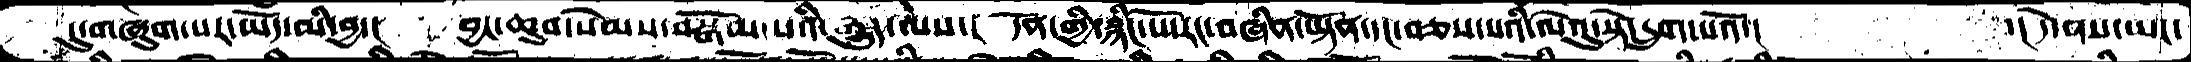དུ་གཞུག་པར་ཡོད་མི་བྱ་།  བྱང་ཆུབ་སེམས་བསྒོམ་པའི་རྒྱུད་ལས་།  དོན་གྱི་སྙིང་པོ་རང་བཞིན་ཡྟོན་དང་བཅས་པའི་ལེའུ་སྟེ་དྲུག་པའོ་།       ་། དེ་ནས་ཡང་
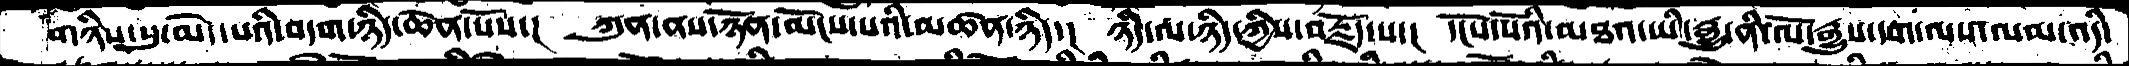གཉིས་སུ་མེད་པའི་བདག་ཉིད་ཆེན་པོས་།  ཀུན་ནས་ཉོན་མོངས་པའི་མཚན་ཉིད་།  ཉིད་ལ་ཉིད་ཀྱིས་བརྗོད་པ་།  དངོས་པོའི་མཐའ་ཡི་རྒྱུ་ནི་ལོ་རྒྱུས་དག་ལས་ལམ་འདི་
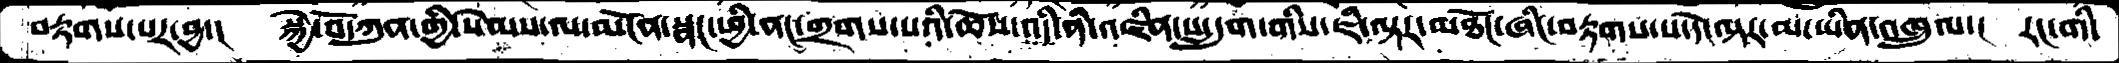བརྟགས་པར་བྱ་།  སྐྱེ་བོ་ཀུན་གྱི་སེམས་ལ་མངོན་སྣང་ཕྱི་ནང་གྲགས་པའི་ཆོས་འདི་ནི་འཛིན་པ་དྲུག་གིས་ཇི་ལྟར་མཐོང་ཞིང་བརྟགས་པ་དེ་ལྟར་མ་ཡིན་འཁྲུལ་།  རང་གི་
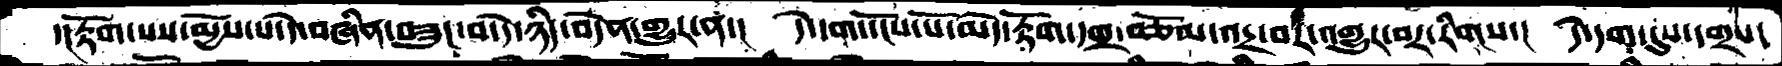་།རྟོག་པས་མྱོས་པ་དེ་བཞིན་བཟུང་བ་དེ་ཉིད་བདེན་གྱུར་ན་།  དེ་དག་དངོས་པོ་མེད་རྟོག་དགྲ་བཅོམ་འདྲ་བར་འགྱུར་བར་རིགས་།  དེ་དག་དུས་དགྲས་
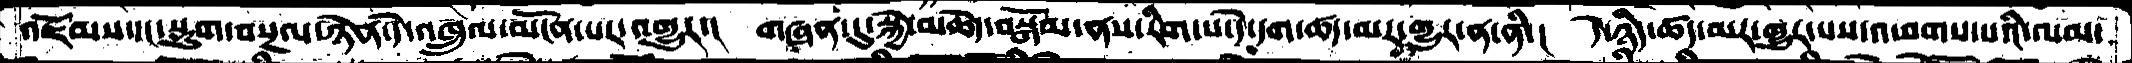འཇོམས་དང་སྡུག་བསྔལ་ཉེན་དེ་འཁྲུལ་མངོན་པར་འགྱུར་།  གཞན་དུ་སྐྱེ་མཆེད་བསྒོམ་ནས་རིག་པ་དེ་དག་ཚད་མར་གྱུར་ན་ནི་།  དེ་ཉིད་ཚད་མར་གྱུར་པས་འཕགས་པའི་ལམ་
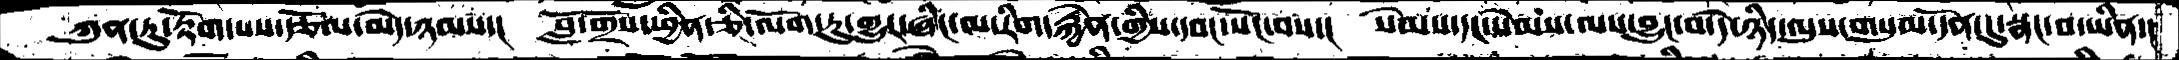ཀུན་ཏུ་རྟོག་པས་རྩོལ་མེད་ཉམས་།  བློ་གྲོས་ཕྱིན་ཅི་ལོག་ཏུ་གྱུར་ཞིང་མ་རིག་རྐྱེན་གྱིས་དབང་སོང་བས་། སེམས་དང་སེམས་ལས་བྱུང་བ་དེ་ཉིད་ལུས་གསུམ་དོན་དུ་སྣང་བ་ཡིན་།
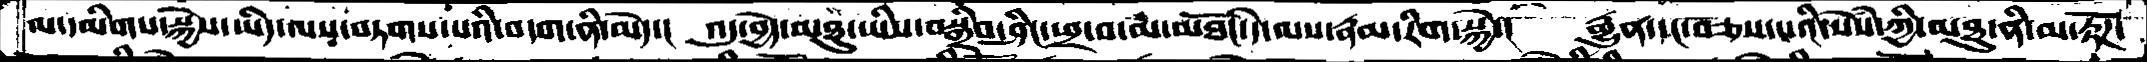ལ་དམིགས་སྐྱེས་ཡིད་ལས་བཏགས་པའི་བདག་ནི་མེད་།  འདུ་བྱེད་མཐུ་ཡིས་བསྒྲིབ་ཤིང་ཕྲ་བ་མ་མཐོང་དེ་ལས་རྣམ་རིག་སྐྱེ་།  རྒྱུན་དང་བཅས་པའི་སེཾས་ཀྱི་མཐུ་ནི་མ་རྟོཌ་
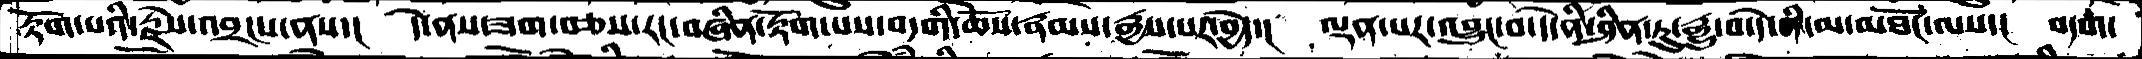རྟོག་པའི་རྗེས་འབྲངས་ནས་།  དེ་ནས་ཟག་བཅས་རང་བཞིན་རྟོག་པས་བདགི་ཆོས་རྣམས་རྒྱས་པར་བྱེད་།  ལྡན་པར་འབྱུང་བ་དེ་ནི་ཤིན་ཏུ་རྒྱུ་བ་དེ་ནི་མ་མཐོང་ལས་།  བདག་
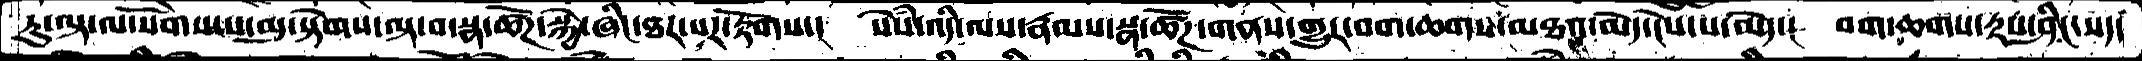ཏུ་ལྟ་ལ་སོགས་པ་མུ་སྟེགས་ལྟ་བ་སྣ་ཚོཌ་སྐྱེ་ཞིང་ཐར་པར་རྟོགས་།  སེཾས་འདི་ལས་རྣམས་སྣ་ཚོཌ་གནས་གྱུར་བག་ཆགས་མཐའ་མེད་ངེས་པ་མེད་།  བག་ཆགས་རྟས་ཤིང་སད་
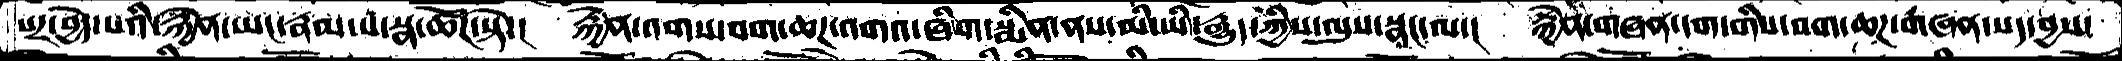པར་བྱེད་པའི་རྐྱེན་ཡང་རྣམ་པ་སྣ་ཚོཌ་སྟེ་།  རྐྱེན་འགས་བག་ཆཌ་འགའ་ཞིག་སྨིན་ནས་མི་ཡི་རྒྱུད་ཀྱིས་ལུས་སྣང་པ་།  རྐྱེན་གཞན་དག་གིས་བག་ཆཌ་གཞན་སད་བྱས་
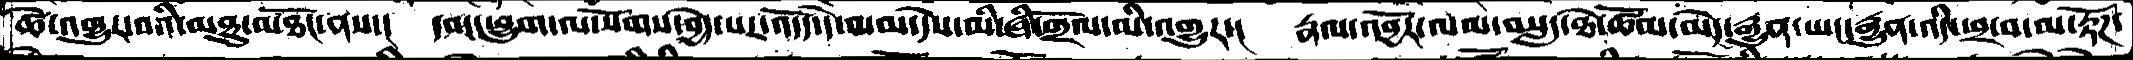ཚེ་འགྱུར་བའི་མཐུ་མཐོང་ནས་།  དབང་ཕྱུག་ལ་སོགས་བྱེད་པར་འདོད་དེ་ལམ་དེས་མི་ཞི་གྲོལ་མི་འགྱུར་།  རྣལ་འབྱོར་ལམ་བསླད་ཐེ་ཚོམ་མེད་རྒྱུན་ཡང་རྒྱུན་འདི་ཕྲ་བ་མ་རྟོཌ་
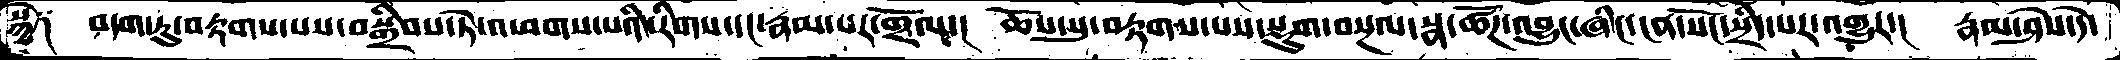སྐྱེ༑  བདག་ཏུ་བརྟགས་པས་བསྒྲིབས་ཏེ་འཕགས་པའི་རིགས་དང་རྣམ་པར་གྲོལ་།  ཆོས་སུ་བརྟགས་པས་སྡུག་བསྔལ་སྣ་ཚོཌ་འབྱུང་ཞིང་ངན་སོང་སྲིད་པར་འགྱུར་།  རྣམ་ཤེས་དེ་
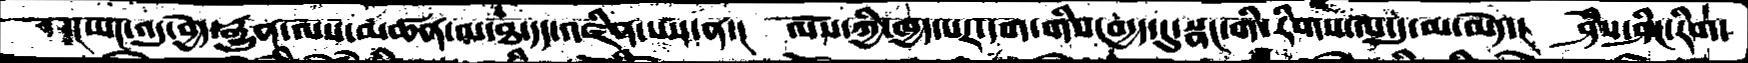་།ཡང་འདུ་བྱེད་རྒྱུན་ལས་མཚན་མ་ཐ་དད་འཛིན་པས་ན་།  ལས་ཀྱི་ཁྱད་པར་དག་གིས་བདྱད་དུ་སྣང་གི་རིགས་ལ་དུ་མ་མེད་།  ཤེས་ཤིང་རིག་
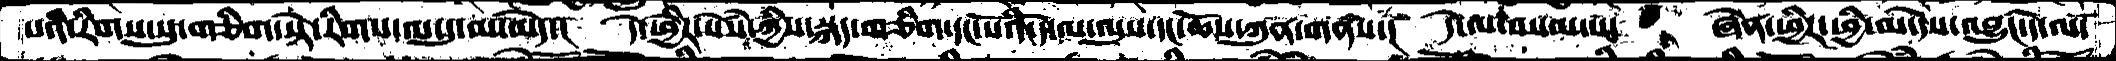པའི་རིགས་སུ་གཅིག་སྟེ་རིགས་ལ་དུ་མ་མེད་།  དེ་ཕྱིར་སེཾས་ཀྱིས་སྐད་གཅིག་དང་པོའི་དེ་ལ་ལུས་དང་ཆོས་ཀུན་གནས་།  དེ་ལ་བསམ་པ་   ཞེན་ཕྱིར་ཕྱི་མ་དེས་འབྱུང་དེ་ལ་
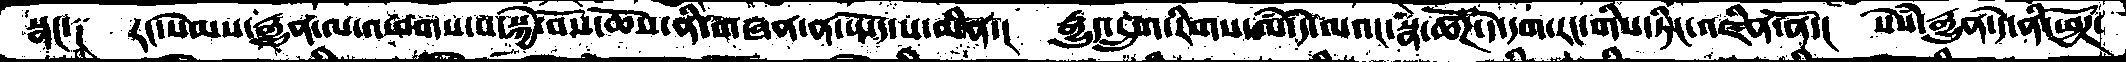སྣང༑  རང་སེམས་རྒྱུན་ལ་འཕགས་པ་སྐྱེ་བོས་ཆོས་ནི་གཞན་ན་ཡོད་པ་ཡིན་།  རྒྱུད་དྲུག་རིགས་ལཾ་དེ་ལའང་སྣ་ཚོཌ་དེ་དག་རང་གིས་ཏིང་འཛིན་ནོ་།  སེཾས་རྒྱུན་དེ་ནི་ཕྱོཌ་
